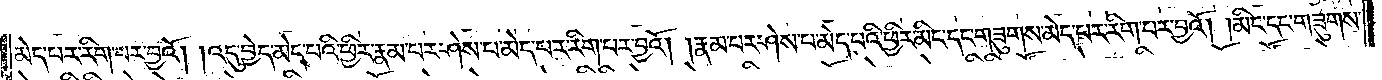མེད་པར་རིག་པར་བྱའོ། །འདུ་བྱེད་མེད་པའི་ཕྱིར་རྣམ་པར་ཤེས་པ་མེད་པར་རིག་པར་བྱའོ། །རྣམ་པར་ཤེས་པ་མེད་པའི་ཕྱིར་མིང་དང་གཟུགས་མེད་པར་རིག་པར་བྱའོ། །མིང་དང་གཟུགས་
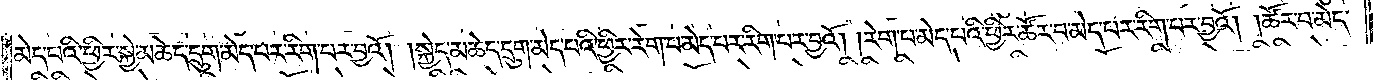མེད་པའི་ཕྱིར་སྐྱེ་མཆེད་དྲུག་མེད་པར་རིག་པར་བྱའོ། །སྐྱེ་མཆེད་དྲུག་མེད་པའི་ཕྱིར་རེག་པ་མེད་པར་རིག་པར་བྱའོ། །རེག་པ་མེད་པའི་ཕྱིར་ཚོར་བ་མེད་པར་རིག་པར་བྱའོ། །ཚོར་བ་མེད་
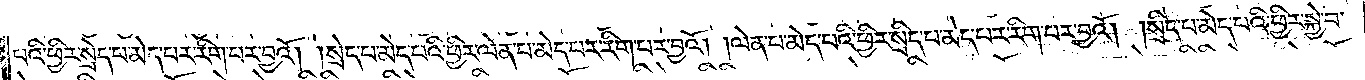པའི་ཕྱིར་སྲེད་པ་མེད་པར་རིག་པར་བྱའོ། །སྲེད་པ་མེད་པའི་ཕྱིར་ལེན་པ་མེད་པར་རིག་པར་བྱའོ། །ལེན་པ་མེད་པའི་ཕྱིར་སྲིད་པ་མེད་པར་རིག་པར་བྱའོ། །སྲིད་པ་མེད་པའི་ཕྱིར་སྐྱེ་བ་
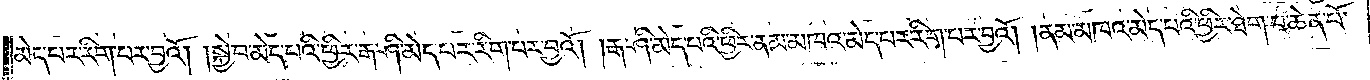མེད་པར་རིག་པར་བྱའོ། །སྐྱེ་བ་མེད་པའི་ཕྱིར་རྒ་ཤི་མེད་པར་རིག་པར་བྱའོ། །རྒ་ཤི་མེད་པའི་ཕྱིར་ནམ་མཁའ་མེད་པར་རིག་པར་བྱའོ། །ནམ་མཁའ་མེད་པའི་ཕྱིར་ཐེག་པ་ཆེན་པོ་
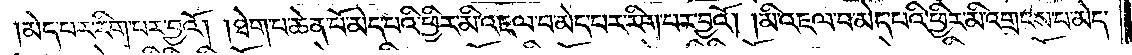མེད་པར་རིག་པར་བྱའོ། །ཐེག་པ་ཆེན་པོ་མེད་པའི་ཕྱིར་མི་འཇལ་བ་མེད་པར་རིག་པར་བྱའོ། །མི་འཇལ་བ་མེད་པའི་ཕྱིར་མི་འགྲངས་པ་མེད་
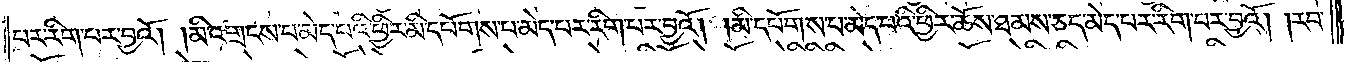པར་རིག་པར་བྱའོ། །མི་འགྲངས་པ་མེད་པའི་ཕྱིར་མི་དཔོགས་པ་མེད་པར་རིག་པར་བྱའོ། །མི་དཔོགས་པ་མེད་པའི་ཕྱིར་ཆོས་ཐམས་ཅད་མེད་པར་རིག་པར་བྱའོ། །རབ་
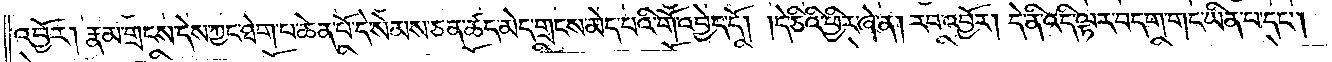འབྱོར། རྣམ་གྲངས་དེས་ཀྱང༌ཐེག་པ་ཆེན་པོ་དེ་སེམས་ཅན་ཚད་མེད་གྲངས་མེད་པའི་གོ་འབྱེད་དོ། །དེ་ཅིའི་ཕྱིར་ཞེ་ན། རབ་འབྱོར། དེ་ནི་འདི་ལྟར་བདག་གང་ཡིན་པ་དང༌།
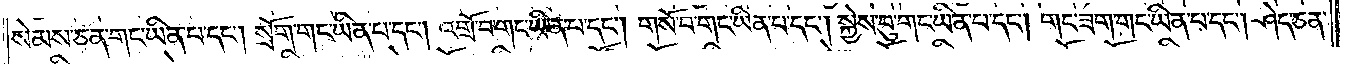སེམས་ཅན་གང་ཡིན་པ་དང༌། སྲོག་གང་ཡིན་པ་དང༌། འགྲོ་བ་གང་ཡིན་པ་དང༌། གསོ་བ་གང་ཡིན་པ་དང༌། སྐྱེས་བུ་གང་ཡིན་པ་དང༌། གང་ཟག་གང་ཡིན་པ་དང༌། ཤེད་ཅན་
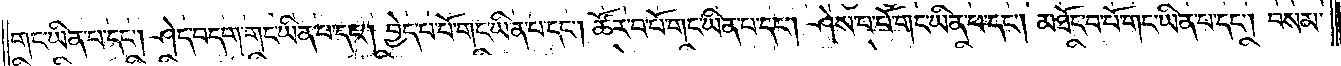གང་ཡིན་པ་དང༌། ཤེད་བདག་གང་ཡིན་པ་དང༌། བྱེད་པ་པོ་གང་ཡིན་པ་དང༌། ཚོར་བ་པོ་གང་ཡིན་པ་དང༌། ཤེས་པ་པོ་གང་ཡིན་པ་དང༌། མཐོང་བ་པོ་གང་ཡིན་པ་དང༌། བསམ་
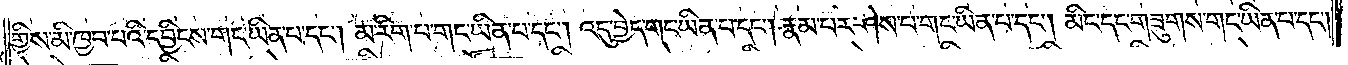གྱིས་མི་ཁྱབ་པའི་དབྱིངས་གང་ཡིན་པ་དང༌། མ་རིག་པ་གང་ཡིན་པ་དང༌། འདུ་བྱེད་གང་ཡིན་པ་དང༌། རྣམ་པར་ཤེས་པ་གང་ཡིན་པ་དང༌། མིང་དང་གཟུགས་གང་ཡིན་པ་དང༌།
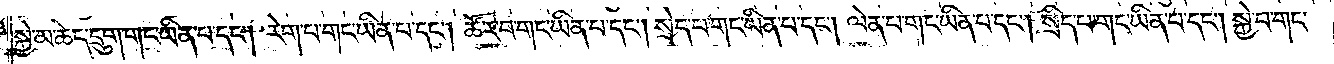སྐྱེ་མཆེད་དྲུག་གང་ཡིན་པ་དང༌། རེག་པ་གང་ཡིན་པ་དང༌། ཚོར་བ་གང་ཡིན་པ་དང༌། སྲེད་པ་གང་ཡིན་པ་དང༌། ལེན་པ་གང་ཡིན་པ་དང༌། སྲིད་པ་གང་ཡིན་པ་དང༌། སྐྱེ་བ་གང་
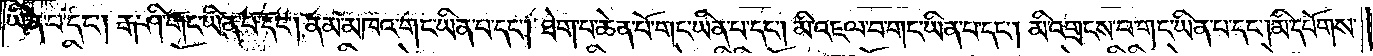ཡིན་པ་དང༌། རྒ་ཤི་གང་ཡིན་པ་དང༌། ནམ་མཁའ་གང་ཡིན་པ་དང༌། ཐེག་པ་ཆེན་པོ་གང་ཡིན་པ་དང༌། མི་འཇལ་བ་གང་ཡིན་པ་དང༌། མི་འགྲངས་པ་གང་ཡིན་པ་དང༌། མི་དཔོགས་
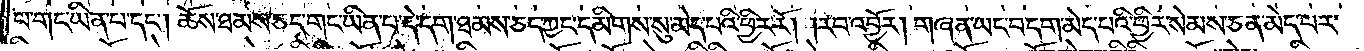པ་གང་ཡིན་པ་དང༌། ཆོས་ཐམས་ཅད་གང་ཡིན་པ་དེ་དག་ཐམས་ཅད་ཀྱང་དམིགས་སུ་མེད་པའི་ཕྱིར་རོ། རབ་འབྱོར། གཞན་ཡང་བདག་མེད་པའི་ཕྱིར་སེམས་ཅན་མེད་པར་
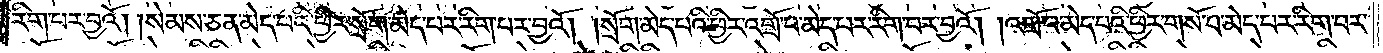རིག་པར་བྱའོ། །སེམས་ཅན་མེད་པའི་ཕྱིར་སྲོག་མེད་པར་རིག་པར་བྱའོ། །སྲོག་མེད་པའི་ཕྱིར་འགྲོ་བ་མེད་པར་རིག་པར་བྱའོ། །འགྲོ་བ་མེད་པའི་ཕྱིར་གསོ་བ་མེད་པར་རིག་པར་
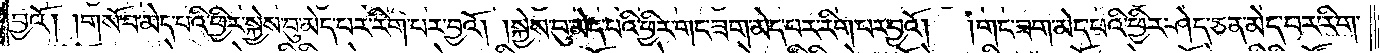བྱའོ། །གསོ་བ་མེད་པའི་ཕྱིར་སྐྱེས་བུ་མེད་པར་རིག་པར་བྱའོ། །སྐྱེས་བུ་མེད་པའི་ཕྱིར་གང་ཟག་མེད་པར་རིག་པར་བྱའོ། །གང་ཟག་མེད་པའི་ཕྱིར་ཤེད་ཅན་མེད་པར་རིག་
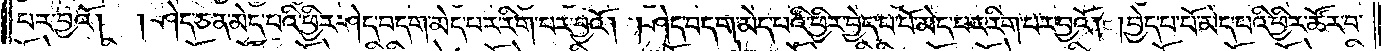པར་བྱའོ། །ཤེད་ཅན་མེད་པའི་ཕྱིར་ཤེད་བདག་མེད་པར་རིག་པར་བྱའོ། །ཤེད་བདག་མེད་པའི་ཕྱིར་བྱེད་པ་པོ་མེད་པར་རིག་པར་བྱའོ། །བྱེད་པ་པོ་མེད་པའི་ཕྱིར་ཚོར་བ་
